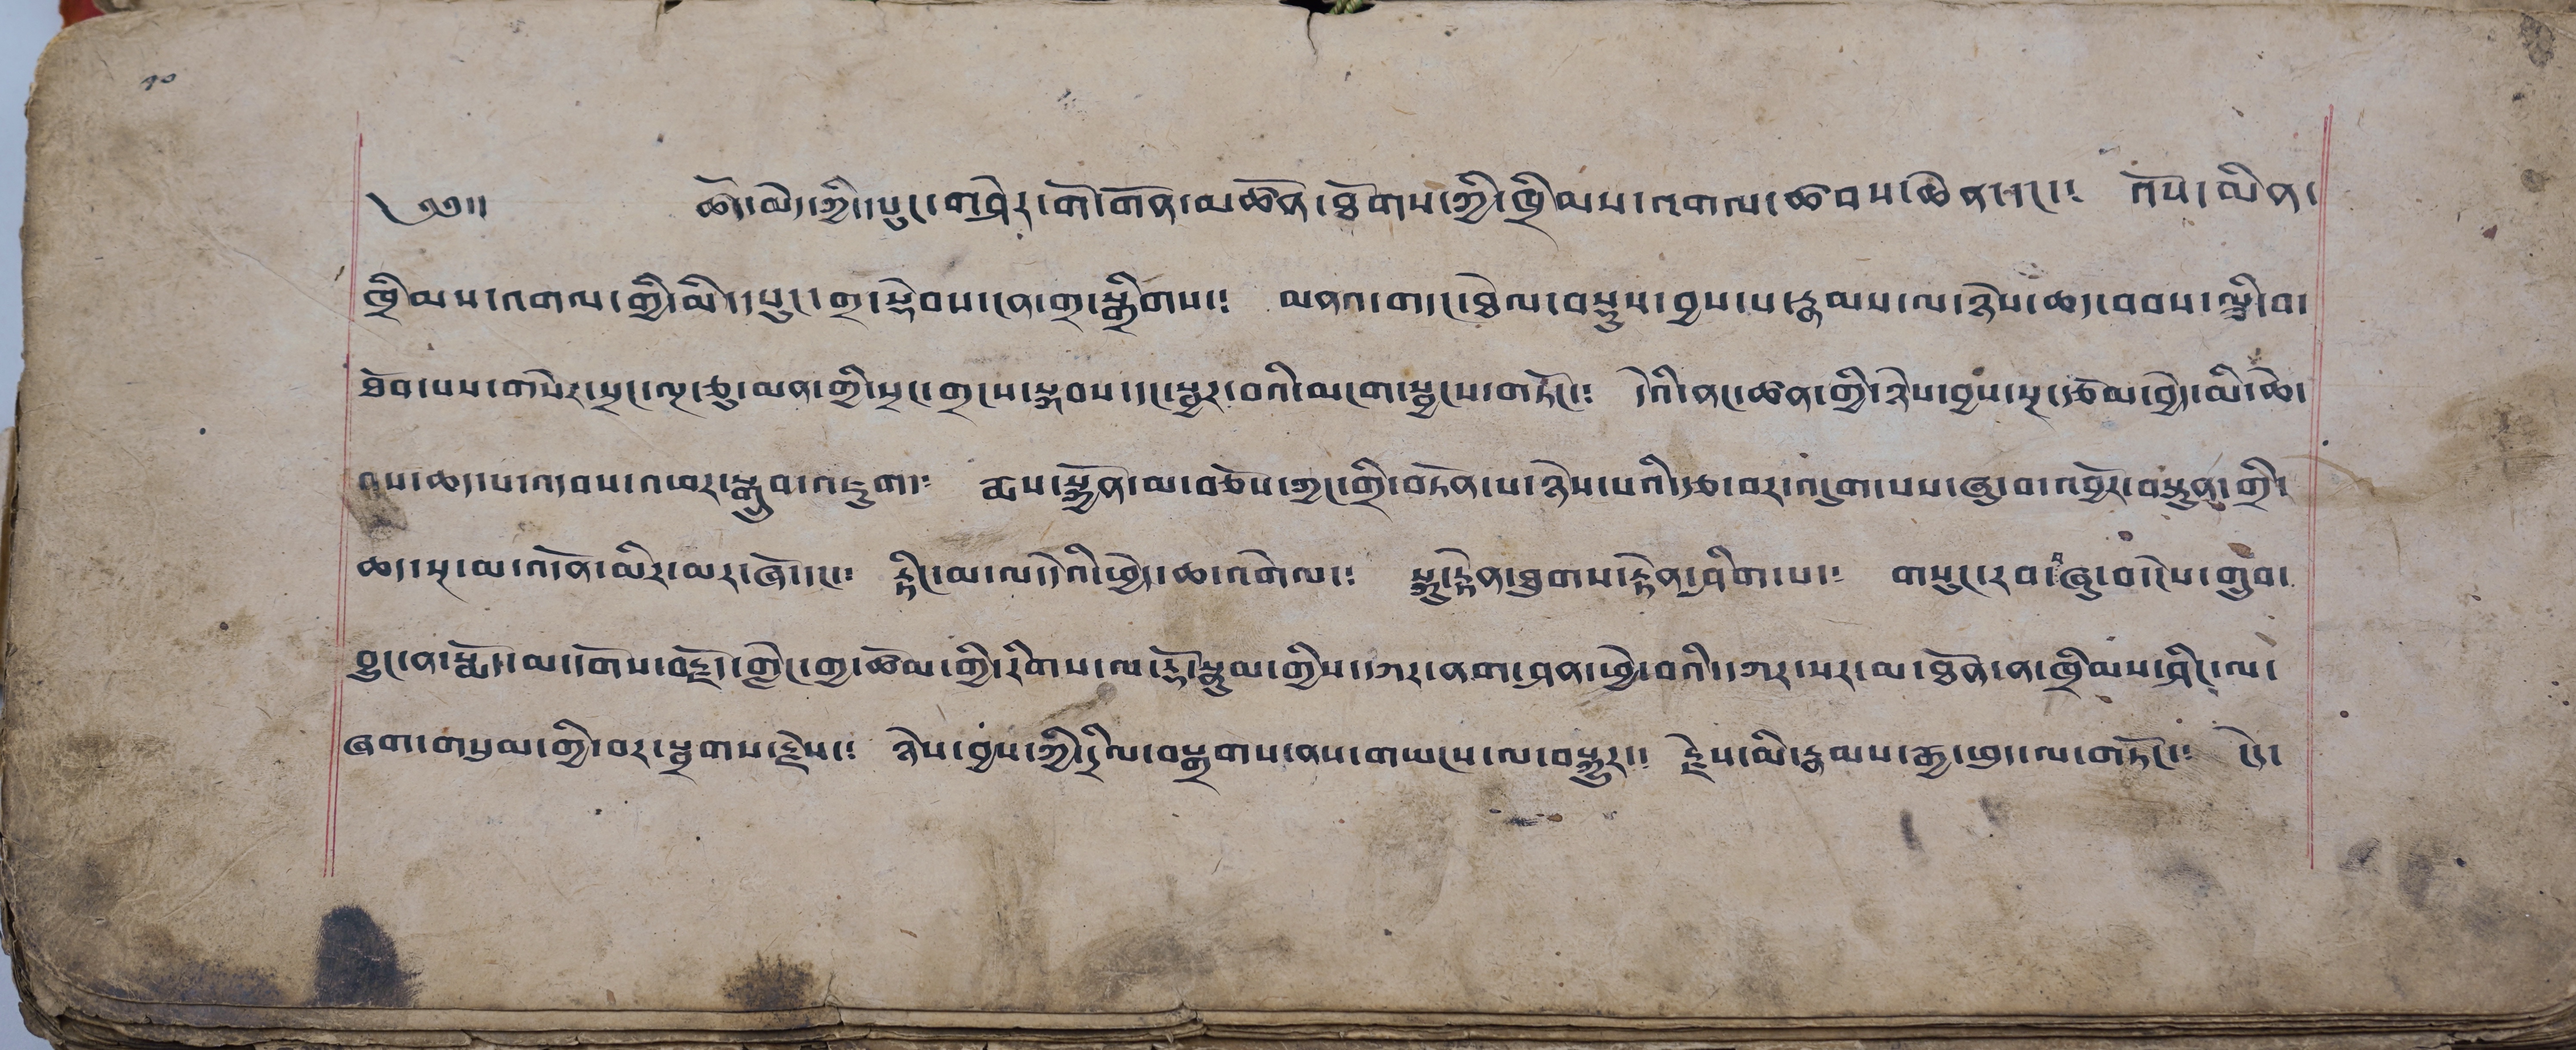༡༠
༄༅།། ཚོད་མེད་ཀྱི་དཔུང་གཤེར་གོ་གོན་མཚོན་ཐོགས་ཀྱི་ཁྲིམས་འགལ་ཚབས་ཆེན་དང་༴ འོས་མིན་
ཁྲིམས་འགལ་གྱི་མི་དཔུང་གྲ་སྡེབས་ངན་གྲ་སྒྲིགས་༴ མནའ་གདང་ཐེལ་བསྡུས་བྱས་པ་རྣམས་ལ་ཉེས་ཆད་ཕབས་ལྕི་བ་
ཐེབ་པས་གསེར་སྲང་ལྔ་ཅུ་མན་གྱི་སྲང་གྲངས་སྐབས་དང་སྦྱར་བའི་མངག་སྦྱངས་གཏོང་༴ དེའི་ནང་ཚན་གྱི་ཉེས་བྱས་སྔ་ཙམ་བྱེད་མི་ཆེ་
བས་ཆད་པ་འདབས་འཕར་སྒྲུབ་འཇུག་༴ རྨས་སྐྱོན་མ་བཅོས་ཀྱང་གྲི་བཏོན་པ་ཉེས་པའི་རྩ་བར་འདུག་པས་ཞུ་བ་འབྱོར་བསྟུན་གྲི་
ཆད་སྔ་མ་འདོན་མིར་མར་ཞོ་དང་༴ རྟིང་མ་ལ་དེའི་ཕྱེད་ཆ་འགེལ་༴ སྐུ་རྟེན་ཐུགས་རྟེན་ཤིག་པ་༴ གསུང་རབ་ཞུ་བ་དེས་གྲུབ་
བྱུང་ན་སྨོད་མ་གོས་བརྗོད་གླེང་གྱ་ཚོམ་གྱི་རིགས་རྟོ་སྣུམ་གྱིས་དཀར་ནག་ཤན་ཕྱེ་བའི་དཀར་སར་མ་ཐོན་ན་ཁྲིམས་ཤིང་ལ་
ཞག་གསུམ་གྱི་བར་སྦྲགས་རྗེས་༴ ཉེས་བྱས་ཀྱི་དྲིལ་བསྒྲགས་ནས་གཡངས་ལ་བསྐྱུར་༴ རྗེས་མི་རྣམས་རྒྱ་ཕུད་ལ་གཏོང་༴ ངེད་
